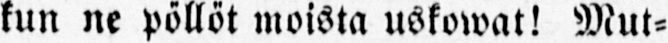kun ne pöllöt moista uskowat! Mut-
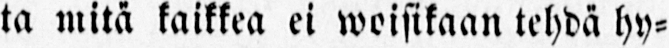ta mitä kaikkea ei woisikaan tehdä hy-
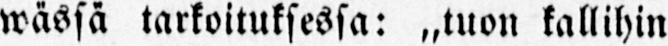wässä tarkoituksessa: „tuon kallihin
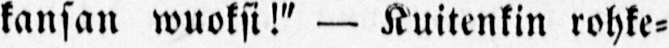kansan wuoksi!" — Kuitenkin rohke-
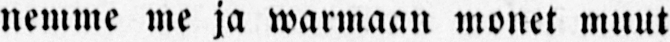nemme me ja warinaan monet muut
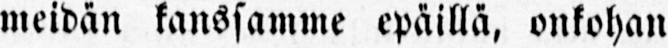meidän kanssamme epäillä, onkohan
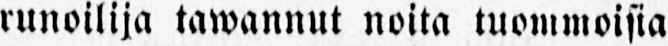runoilija tawannut noita tuommoisia
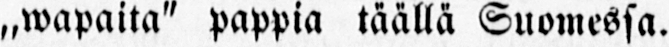,,wapaita" pappia täällä Suomessa.
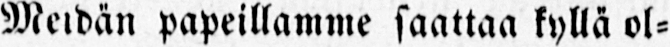Meidän papeillamme saattaa kyllä ol-
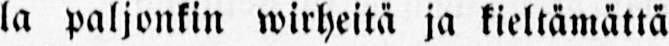la paljonkin wirheitä ja kieltämättä
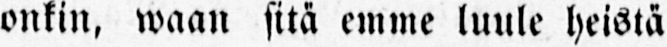onkin, waan sitä emme luule heistä
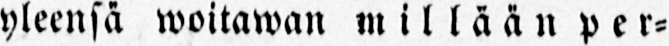yleensä woitawan millään per-
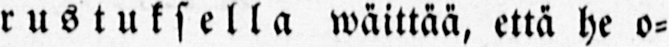rustuksella wäittää, että he o-
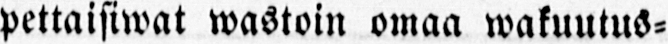pettaisiwat wastoin omaa wakuutus-
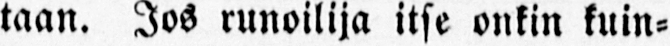taan. Jos runoilija itse onkin kuin-
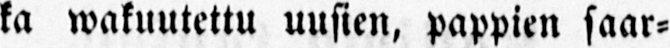ka wakuutettu uusien, pappien saar-
